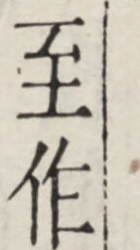至作
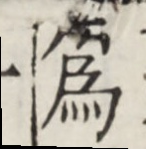為
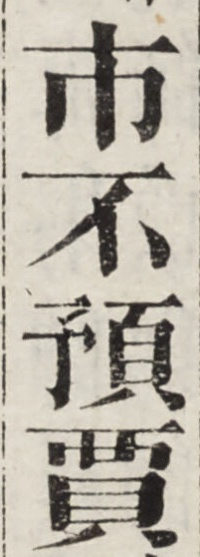市不預賈
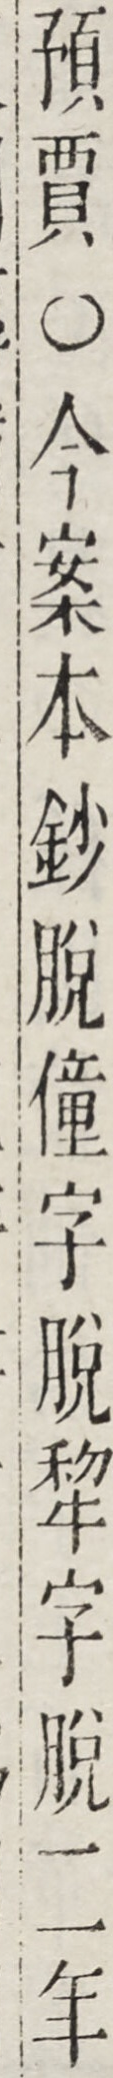預賈○今案本鈔脫僮字脫犂字脫二年
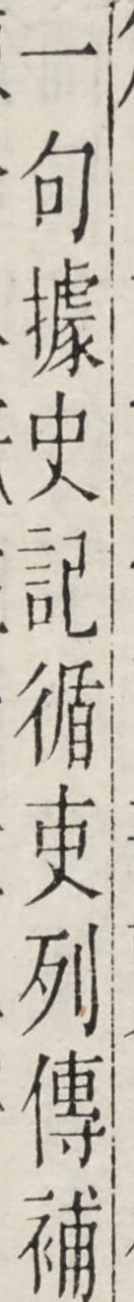一句據史記循吏列傳補
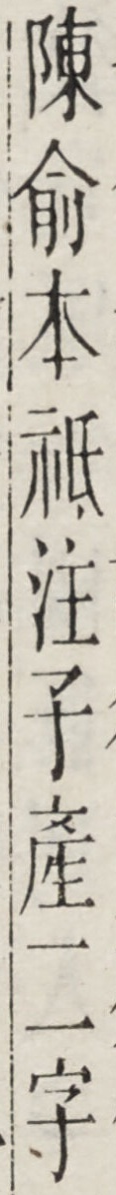陳俞本祗注子產二字
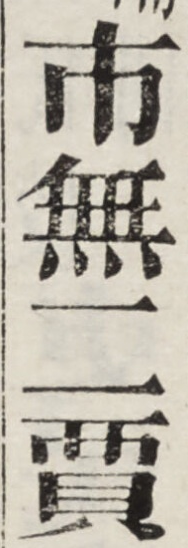市無二賈
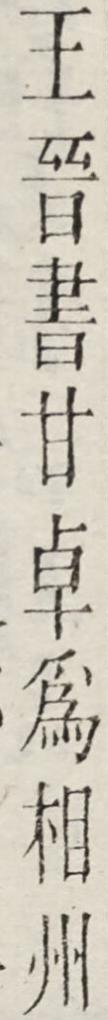王晉書甘卓為相州
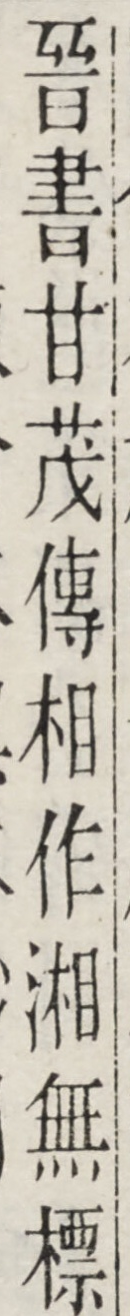晉書甘茂傳相作湘無標
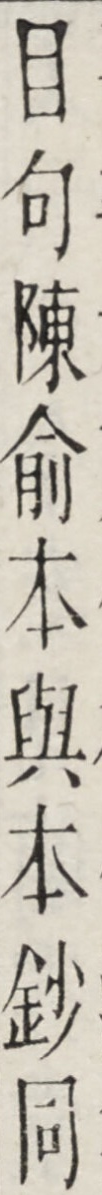目句陳俞本與本鈔同
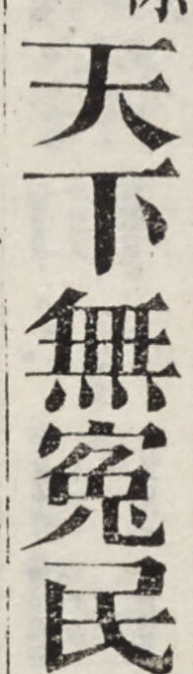天下無冤民
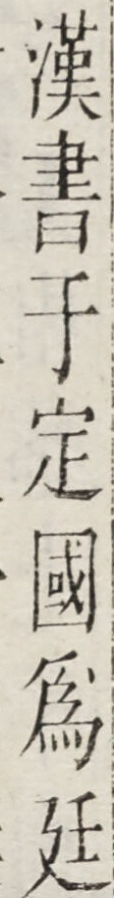漢書於定國為廷
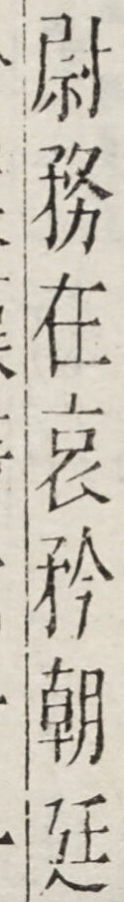尉務在哀矜朝廷
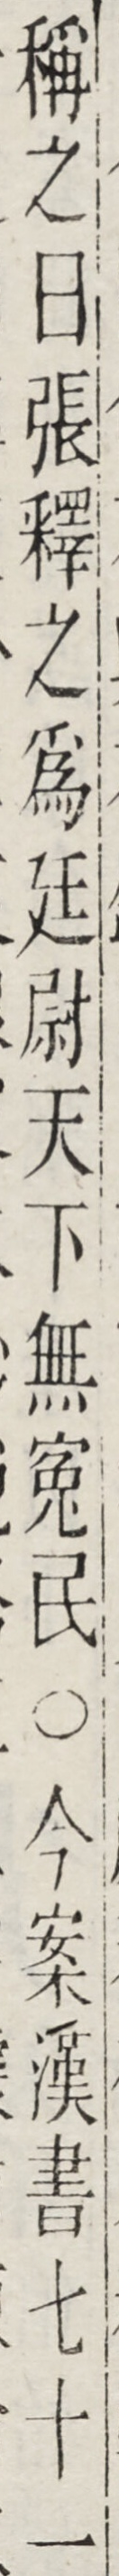稱之曰張釋之為廷尉天下無冤民○今案漢書七十一
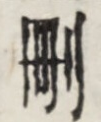刑
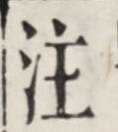注
